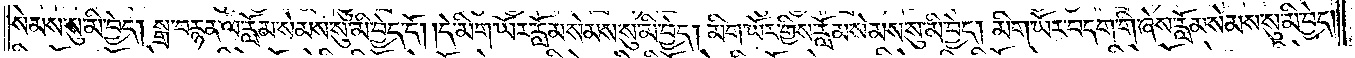སེམས་སུ་མི་བྱེད། སྒྲ་བརྙན་ལ་རློམ་སེམས་སུ་མི་བྱེད་དོ། །དེ་མིག་ཡོར་རློམ་སེམས་སུ་མི་བྱེད། མིག་ཡོར་གྱིས་རློམ་སེམས་སུ་མི་བྱེད། མིག་ཡོར་བདག་གི་ཞེས་རློམ་སེམས་སུ་མི་བྱེད།
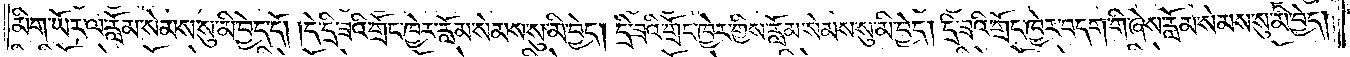མིག་ཡོར་ལ་རློམ་སེམས་སུ་མི་བྱེད་དོ། །དེ་དྲི་ཟའི་གྲོང་ཁྱེར་རློམ་སེམས་སུ་མི་བྱེད། དྲི་ཟའི་གྲོང་ཁྱེར་གྱིས་རློམ་སེམས་སུ་མི་བྱེད། དྲི་ཟའི་གྲོང་ཁྱེར་བདག་གི་ཞེས་རློམ་སེམས་སུ་མི་བྱེད།
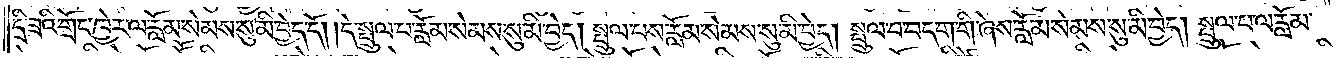དྲི་ཟའི་གྲོང་ཁྱེར་ལ་རློམ་སེམས་སུ་མི་བྱེད་དོ། །དེ་སྤྲུལ་པ་རློམ་སེམས་སུ་མི་བྱེད། སྤྲུལ་པས་རློམ་སེམས་སུ་མི་བྱེད། སྤྲུལ་པ་བདག་གི་ཞེས་རློམ་སེམས་སུ་མི་བྱེད། སྤྲུལ་པ་ལ་རློམ་
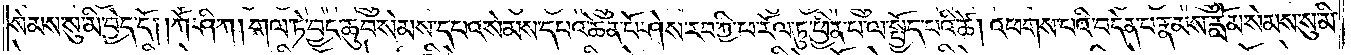སེམས་སུ་མི་བྱེད་དོ། །ཀཽ་ཤི་ཀ། གལ་ཏེ་བྱང་ཆུབ་སེམས་དཔའ་སེམས་དཔའ་ཆེན་པོ་ཤེས་རབ་ཀྱི་ཕ་རོལ་ཏུ་ཕྱིན་པ་ལ་སྤྱོད་པའི་ཚེ། འཕགས་པའི་བདེན་པ་རྣམས་རློམ་སེམས་སུ་མི་
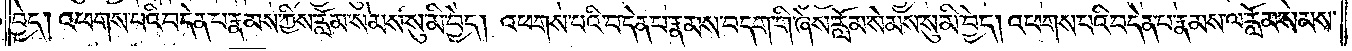བྱེད། འཕགས་པའི་བདེན་པ་རྣམས་ཀྱིས་རློམ་སེམས་སུ་མི་བྱེད། འཕགས་པའི་བདེན་པ་རྣམས་བདག་གི་ཞེས་རློམ་སེམས་སུ་མི་བྱེད། འཕགས་པའི་བདེན་པ་རྣམས་ལ་རློམ་སེམས་
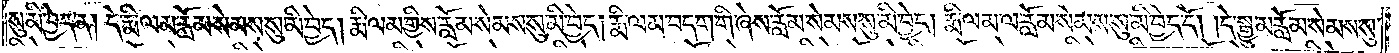སུ་མི་བྱེད་ན། དེ་རྨི་ལམ་རློམ་སེམས་སུ་མི་བྱེད། རྨི་ལམ་གྱིས་རློམ་སེམས་སུ་མི་བྱེད། རྨི་ལམ་བདག་གི་ཞེས་རློམ་སེམས་སུ་མི་བྱེད། རྨི་ལམ་ལ་རློམ་སེམས་སུ་མི་བྱེད་དོ། །དེ་སྒྱུ་མ་རློམ་སེམས་སུ་
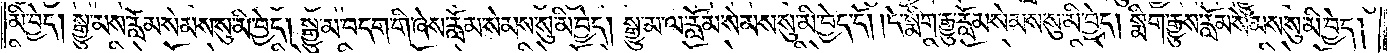མི་བྱེད། སྒྱུ་མས་རློམ་སེམས་སུ་མི་བྱེད། སྒྱུ་མ་བདག་གི་ཞེས་རློམ་སེམས་སུ་མི་བྱེད། སྒྱུ་མ་ལ་རློམ་སེམས་སུ་མི་བྱེད་དོ། །དེ་སྨིག་རྒྱུ་རློམ་སེམས་སུ་མི་བྱེད། སྨིག་རྒྱུས་རློམ་སེམས་སུ་མི་བྱེད།
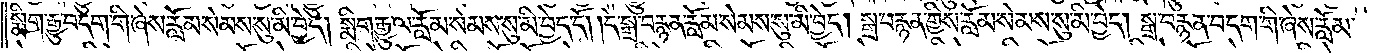སྨིག་རྒྱུ་བདག་གི་ཞེས་རློམ་སེམས་སུ་མི་བྱེད། སྨིག་རྒྱུ་ལ་རློམ་སེམས་སུ་མི་བྱེད་དོ། །དེ་སྒྲ་བརྙན་རློམ་སེམས་སུ་མི་བྱེད། སྒྲ་བརྙན་གྱིས་རློམ་སེམས་སུ་མི་བྱེད། སྒྲ་བརྙན་བདག་གི་ཞེས་རློམ་
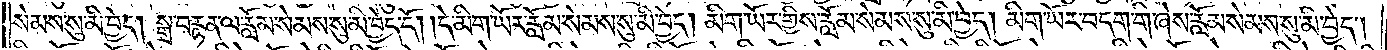སེམས་སུ་མི་བྱེད། སྒྲ་བརྙན་ལ་རློམ་སེམས་སུ་མི་བྱེད་དོ། །དེ་མིག་ཡོར་རློམ་སེམས་སུ་མི་བྱེད། མིག་ཡོར་གྱིས་རློམ་སེམས་སུ་མི་བྱེད། མིག་ཡོར་བདག་གི་ཞེས་རློམ་སེམས་སུ་མི་བྱེད།
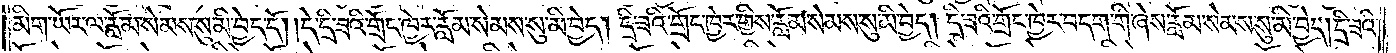མིག་ཡོར་ལ་རློམ་སེམས་སུ་མི་བྱེད་དོ། །དེ་དྲི་ཟའི་གྲོང་ཁྱེར་རློམ་སེམས་སུ་མི་བྱེད། དྲི་ཟའི་གྲོང་ཁྱེར་གྱིས་རློམ་སེམས་སུ་མི་བྱེད། དྲི་ཟའི་གྲོང་ཁྱེར་བདག་གི་ཞེས་རློམ་སེམས་སུ་མི་བྱེད། དྲི་ཟའི་
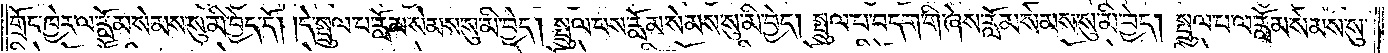གྲོང་ཁྱེར་ལ་རློམ་སེམས་སུ་མི་བྱེད་དོ། །དེ་སྤྲུལ་པ་རློམ་སེམས་སུ་མི་བྱེད། སྤྲུལ་པས་རློམ་སེམས་སུ་མི་བྱེད། སྤྲུལ་པ་བདག་གི་ཞེས་རློམ་སེམས་སུ་མི་བྱེད། སྤྲུལ་པ་ལ་རློམ་སེམས་སུ་
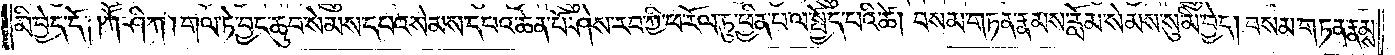མི་བྱེད་དོ། །ཀཽ་ཤི་ཀ། གལ་ཏེ་བྱང་ཆུབ་སེམས་དཔའ་སེམས་དཔའ་ཆེན་པོ་ཤེས་རབ་ཀྱི་ཕ་རོལ་ཏུ་ཕྱིན་པ་ལ་སྤྱོད་པའི་ཚེ། བསམ་གཏན་རྣམས་རློམ་སེམས་སུ་མི་བྱེད། བསམ་གཏན་རྣམས་
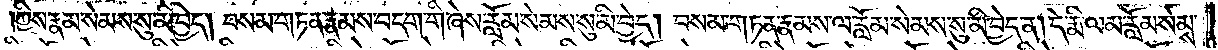ཀྱིས་རྣམ་སེམས་སུ་མི་བྱེད། བསམ་གཏན་རྣམས་བདག་གི་ཞེས་རློམ་སེམས་སུ་མི་བྱེད། བསམ་གཏན་རྣམས་ལ་རློམ་སེམས་སུ་མི་བྱེད་ན། དེ་རྨི་ལམ་རློམ་སེམས་
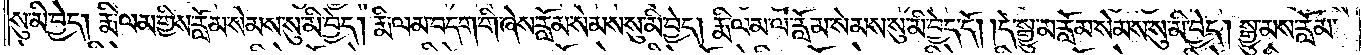སུ་མི་བྱེད། རྨི་ལམ་གྱིས་རློམ་སེམས་སུ་མི་བྱེད། རྨི་ལམ་བདག་གི་ཞེས་རློམ་སེམས་སུ་མི་བྱེད། རྨི་ལམ་ལ་རློམ་སེམས་སུ་མི་བྱེད་དོ། །དེ་སྒྱུ་མ་རློམ་སེམས་སུ་མི་བྱེད། སྒྱུ་མས་རློམ་
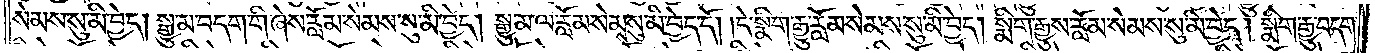སེམས་སུ་མི་བྱེད། སྒྱུ་མ་བདག་གི་ཞེས་རློམ་སེམས་སུ་མི་བྱེད། སྒྱུ་མ་ལ་རློམ་སེམས་སུ་མི་བྱེད་དོ། །དེ་སྨིག་རྒྱུ་རློམ་སེམས་སུ་མི་བྱེད། སྨིག་རྒྱུས་རློམ་སེམས་སུ་མི་བྱེད། སྨིག་རྒྱུ་བདག་
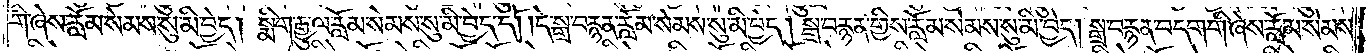གི་ཞེས་རློམ་སེམས་སུ་མི་བྱེད། སྨིག་རྒྱུ་ལ་རློམ་སེམས་སུ་མི་བྱེད་དོ། །དེ་སྒྲ་བརྙན་རློམ་སེམས་སུ་མི་བྱེད། སྒྲ་བརྙན་གྱིས་རློམ་སེམས་སུ་མི་བྱེད། སྒྲ་བརྙན་བདག་གི་ཞེས་རློམ་སེམས་
